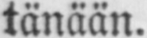tänään.
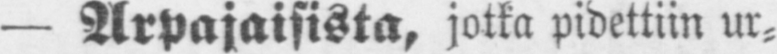— Arpajaisista, jotka pidettiin ur-
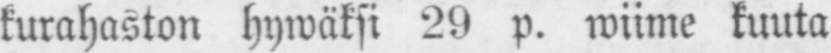kurahaston hywäksi 29 p. wiime kuuta
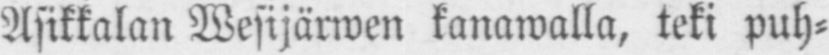Asikkalan Wesijärwen kanawalla, teki puh-
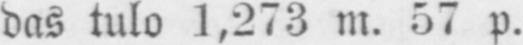das tulo 1,273 m. 57 p.
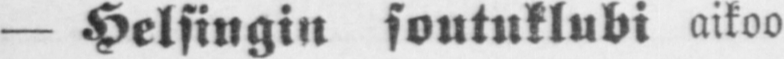— Helsingin soutuklubi aikoo
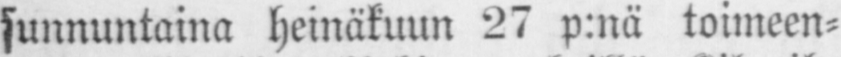sunnuntaina heinäkuun 27 p:nä toimeen-
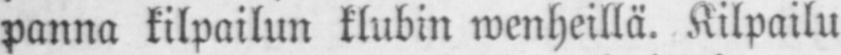panna kilpailun klubin wenheillä. Kilpailu
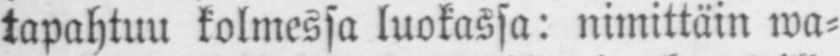tapahtuu kolmessa luokassa: nimittäin wa-
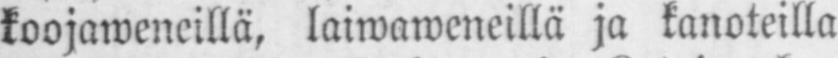koojaweneillä, laiwaweneillä ja kanoteilla
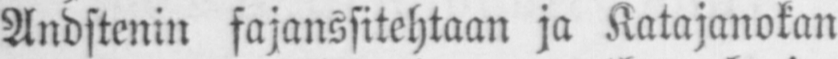Andstenin fajanssitehtaan ja Katajanokan
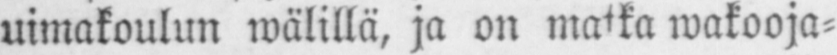uimakoulun wälillä, ja on matka wakooja-
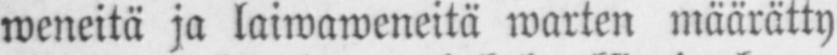weneitä ja laiwaweneitä warten määrätty
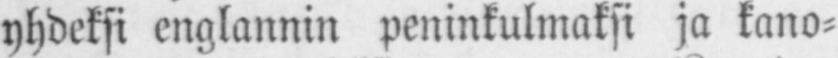yhdeksi englannin peninkulmaksi ja kano-
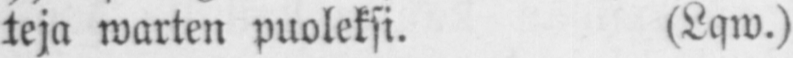teja warten puoleksi. (Lqw.)
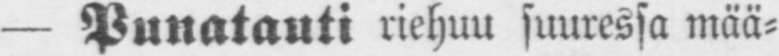— Punatauti riehuu suuressa mää-
